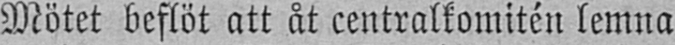Mötet beslöt att åt centralkomitén lemna
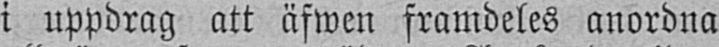i uppdrag att äfwen framdeles anordna
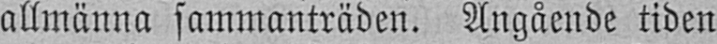allmänna sammanträden. Angående tiden
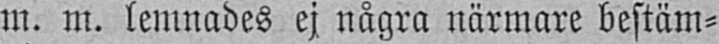m. m. lemnades ej några närmare bestäm-
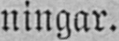ningar.
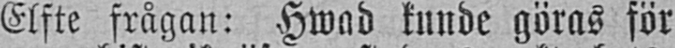Elfte frågan: Hwad kunde göras för
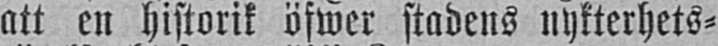att en historik öfwer stadens nykterhets-
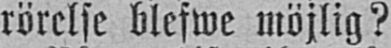rörelse blefwe möjlig?
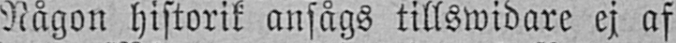Någon historik ansågs tillswidare ej af
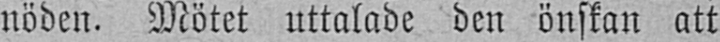nöden. Mötet uttalade den önskan att
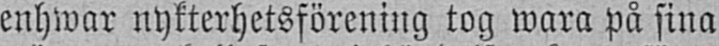enhwar nykterhetsförening tog wara på sina
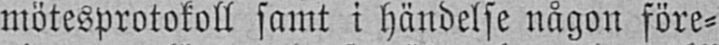mötesprotokoll samt i händelse någon före-
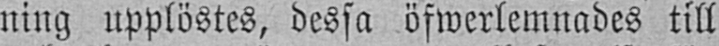ning upplöstes, dessa öfwerlemnades till
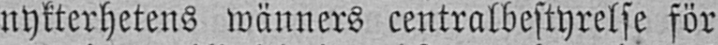nykterhetens wänners centralbestyrelse för
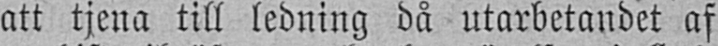att tjena till ledning då utarbetandet af
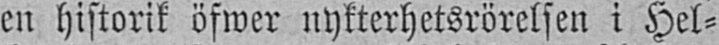en historik öfwer nykterhetsrörelsen i Hel-
